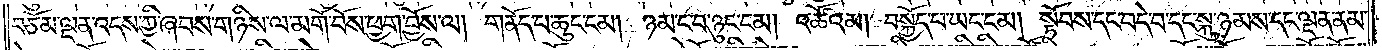བཅོམ་ལྡན་འདས་ཀྱི་ཞབས་གཉིས་ལ་མགོ་བོས་ཕྱག་བྱོས་ལ། གནོད་པ་ཆུང་ངམ། ཉམ་ང་བ་ཉུང་ངམ། འཚོའམ། བསྐྱོད་པ་ཡང་ངམ། སྟོབས་དང་བདེ་བ་དང་སྐུ་ཉམས་དང་ལྡན་ནམ་
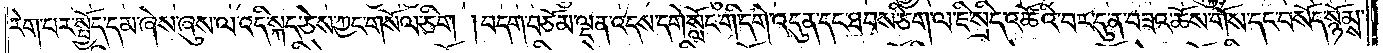རེག་པར་སྤྱོད་དམ་ཞེས་ཞུས་ལ་འདི་སྐད་ཅེས་ཀྱང་གསོལ་ཅིག །བདག་བཅོམ་ལྡན་འདས་དགེ་སློང་གི་དགེ་འདུན་དང་ཐབས་ཅིག་ལ་ཇི་སྲིད་འཚོའི་བར་དུ་ན་བཟའ་ཆོས་གོས་དང་བསོད་སྙོམས་
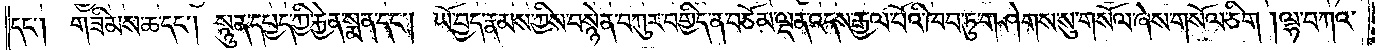དང༌། གཟིམས་ཆ་དང༌། སྙུན་དཔྱད་ཀྱི་རྐྱེན་སྨན་དང༌། ཡོ་བྱད་རྣམས་ཀྱིས་བསྙེན་བཀུར་བགྱིད་ན་བཅོམ་ལྡན་འདས་རྒྱལ་པོའི་ཁབ་ཏུ་གཤེགས་སུ་གསོལ་ཞེས་གསོལ་ཅིག །ལྷ་བཀའ་
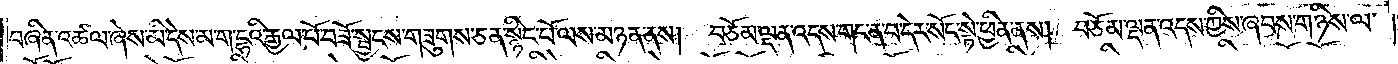བཞིན་འཚལ་ཞེས་མི་དེས་མ་ག་དྷའི་རྒྱལ་པོ་བཟོ་སྦྱངས་གཟུགས་ཅན་སྙིང་པོ་ལས་མཉན་ནས། བཅོམ་ལྡན་འདས་གང་ན་བ་དེར་སོང་སྟེ་ཕྱིན་ནས། བཅོམ་ལྡན་འདས་ཀྱིས་ཞབས་གཉིས་ལ་
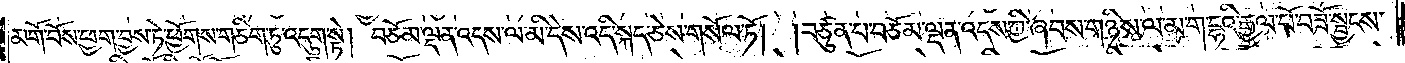མགོ་བོས་ཕྱག་བྱས་ཏེ་ཕྱོགས་གཅིག་ཏུ་འདུག་སྟེ། བཅོམ་ལྡན་འདས་ལ་མི་དེས་འདི་སྐད་ཅེས་གསོལ་ཏོ། །བཙུན་པ་བཅོམ་ལྡན་འདས་ཀྱི་ཞབས་གཉིས་ལ་མ་ག་དྷའི་རྒྱལ་པོ་བཟོ་སྦྱངས་
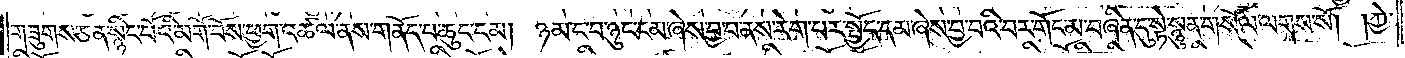གཟུགས་ཅན་སྙིང་པོའི་མགོ་བོས་ཕྱག་འཚལ་ནས་གནོད་པ་ཆུང་ངམ། ཉམ་ང་བ་ཉུང་ངམ་ཞེས་བྱ་བ་ནས་རེག་པར་སྤྱོད་དམ་ཞེས་བྱ་བའི་བར་གོང་མ་བཞིན་དུ་སྟེ་སྙུན་གསོལ་ལགས་སོ། །ཀྱེ་
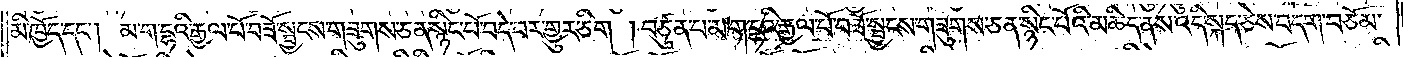མི་ཁྱོད་དང༌། མ་ག་དྷའི་རྒྱལ་པོ་བཟོ་སྦྱངས་གཟུགས་ཅན་སྙིང་པོ་བདེ་བར་གྱུར་ཅིག །བཙུན་པ་མ་ག་དྷའི་རྒྱལ་པོ་བཟོ་སྦྱངས་གཟུགས་ཅན་སྙིང་པོའི་མཆིད་ནས་འདི་སྐད་ཅེས་བདག་བཅོམ་
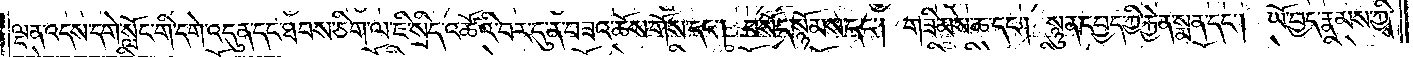ལྡན་འདས་དགེ་སློང་གི་དགེ་འདུན་དང་ཐབས་ཅིག་ལ་ཇི་སྲིད་འཚོའི་བར་དུ་ན་བཟའ་ཆོས་གོས་དང༌། བསོད་སྙོམས་དང༌། གཟིམས་ཆ་དང༌། སྙུན་དཔྱད་ཀྱི་རྐྱེན་སྨན་དང༌། ཡོ་བྱད་རྣམས་ཀྱིས་
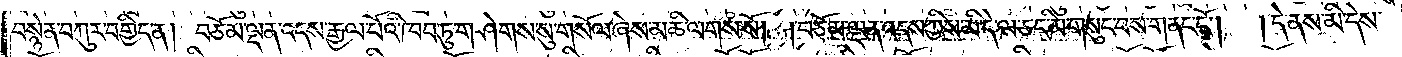བསྙེན་བཀུར་བགྱིད་ན། བཅོམ་ལྡན་འདས་རྒྱལ་པོའི་ཁབ་ཏུ་གཤེགས་སུ་གསོལ་ཞེས་མཆི་ལགས་སོ། །བཅོམ་ལྡན་འདས་ཀྱིས་མི་དེ་ལ་ཅང་མི་གསུང་བས་གནང་ངོ༌།  །དེ་ནས་མི་དེས་
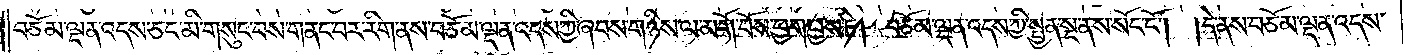བཅོམ་ལྡན་འདས་ཅང་མི་གསུང་བས་གནང་བར་རིག་ནས་བཅོམ་ལྡན་འདས་ཀྱི་ཞབས་གཉིས་ལ་མགོ་བོས་ཕྱག་བྱས་ཏེ། བཅོམ་ལྡན་འདས་ཀྱི་སྤྱན་སྔ་ནས་སོང་ངོ༌། །དེ་ནས་བཅོམ་ལྡན་འདས་
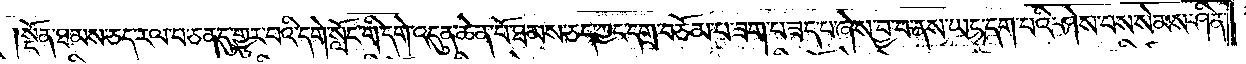སྔོན་ཐམས་ཅད་རལ་པ་ཅན་དུ་གྱུར་པའི་དགེ་སློང་གི་དགེ་འདུན་ཆེན་པོ་ཐམས་ཅད་ཀྱང་དགྲ་བཅོམ་པ་ཟག་པ་ཟད་པ་ཞེས་བྱ་བ་ནས་ཡང་དག་པའི་ཤེས་པས་སེམས་ཤིན་
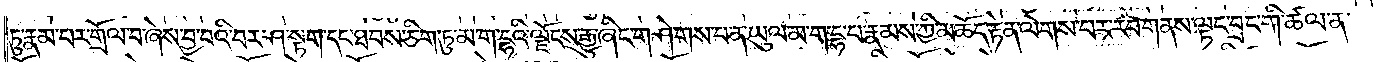ཏུ་རྣམ་པར་གྲོལ་བ་ཞེས་བྱ་བའི་བར་ཤ་སྟག་དང་ཐབས་ཅིག་ཏུ་མ་ག་དྷའི་ལྗོངས་རྒྱུ་ཞིང་གཤེགས་པ་ན་ཡུལ་མ་ག་དྷ་པ་རྣམས་ཀྱི་མཆོད་རྟེན་ལེགས་པར་རབ་གནས་ལྟང་བྲང་གི་ཚལ་ན་
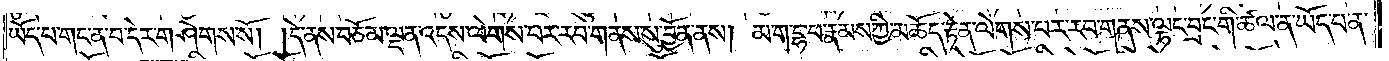ཡོད་པ་གང་ན་བ་དེར་གཤེགས་སོ། །དེ་ནས་བཅོམ་ལྡན་འདས་ལེགས་པར་རབ་གནས་སུ་བྱོན་ནས། མ་ག་དྷ་པ་རྣམས་ཀྱི་མཆོད་རྟེན་ལེགས་པར་རབ་གནས་ལྟང་བྲང་གི་ཚལ་ན་ཡོད་པ་ན་
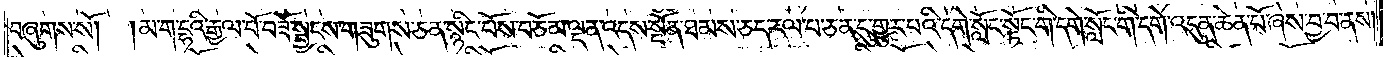བཞུགས་སོ། །མ་ག་དྷའི་རྒྱལ་པོ་བཟོ་སྦྱངས་གཟུགས་ཅན་སྙིང་པོས་བཅོམ་ལྡན་འདས་སྔོན་ཐམས་ཅད་རལ་པ་ཅན་དུ་གྱུར་པའི་དགེ་སློང་སྟོང་གི་དགེ་སློང་གི་དགེ་འདུན་ཆེན་པོ་ཞེས་བྱ་བ་ནས།
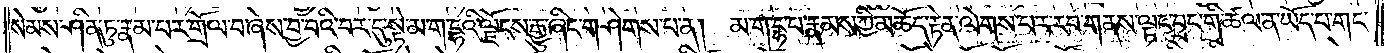སེམས་ཤིན་ཏུ་རྣམ་པར་གྲོལ་བ་ཞེས་བྱ་བའི་བར་དུ་སྟེ་མ་ག་དྷའི་ལྗོངས་རྒྱུ་ཞིང་གཤེགས་པ་ན། མ་ག་དྷ་པ་རྣམས་ཀྱི་མཆོད་རྟེན་ལེགས་པར་རབ་གནས་ལྟང་བྲང་གི་ཚལ་ན་ཡོད་པ་གང་
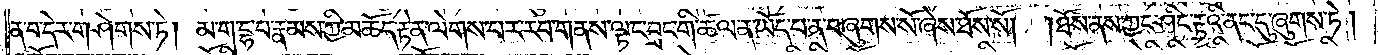ན་བ་དེར་གཤེགས་ཏེ། མ་ག་དྷ་པ་རྣམས་ཀྱི་མཆོད་རྟེན་ལེགས་པར་རབ་གནས་ལྟང་བྲང་གི་ཚལ་ན་ཡོད་པ་ན་བཞུགས་སོ་ཞེས་ཐོས་སོ། །ཐོས་ནས་ཀྱང་ཤིང་རྟའི་ནང་དུ་ཞུགས་ཏེ།
